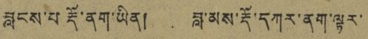བླངས་པ རྡོ་ནག་ཡིན། བླ་མས་རྡོ་དཀར་ནག་ལྟར་
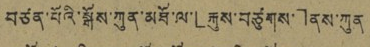བཙན་པོའི་སྒོས་ཀུན་མཐོ་ལ་「རྐུས་བཙུགས་」ནས་ཀུན
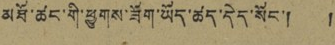མཐོ་ཚང་གི་ཕྱུགས་ཟོག་ཡོད་ཚད་དེད་སོང་། །
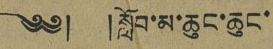༄༅། །སློབ་མ་ཆུང་ཆུང་
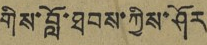གིས་བློ་ཐབས་ཀྱིས་ཤོར
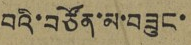བའི་བཙོན་མ་བཟུང་
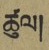ཚུལ།
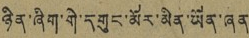ཉིན་ཞིག་གི་དགུང་མོར་མིན་ཡོན་ཞན
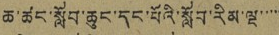ཆ་ཚང་སློབ་ཆུང་དང་པོའི་སློབ་རིམ་ལྔ་་་་་
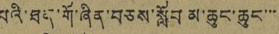པའི་ཐན་གོ་ཞིན་བཅས་སློབ་མ་ཆུང་ཆུང་་་
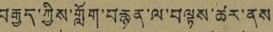བརྒྱད་ཀྱིས་གློག་བརྙན་ལ་བལྟས་ཚར་ནས་
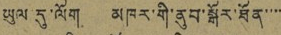ཡུལ་དུ་ལོག མཁར་གི་ནུབ་སྒོར་ཐོན་་་
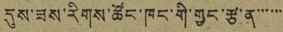དུས་ཟས་རིགས་ཚོང་ཁང་གི་གྱང་རྩ་ན་་་་་་
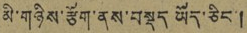མི་གཉིས་རྩོག་ནས་བསྡད ཡོད་ཅིང་།
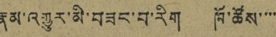རྣམ་འགྱུར་མི་བཟང་བ་རིག ཁོ་ཚོས་་་་
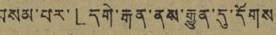བསམ་པར་「དགེ་རྒན་ནས་རྒྱུན་དུ་དོགས
